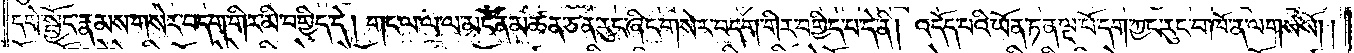དགེ་སྦྱོང་རྣམས་གསེར་བདག་གིར་མི་བགྱིད་དེ། གང་ལ་ལ་ལ་མངོན་མཚན་ཅན་རུང་ཞིང་གསེར་བདག་གིར་བགྱིད་པ་དེ་ནི། འདོད་པའི་ཡོན་ཏན་ལྔ་པོ་དག་ཀྱང་རུང་བ་ཁོ་ན་ལགས་སོ། །
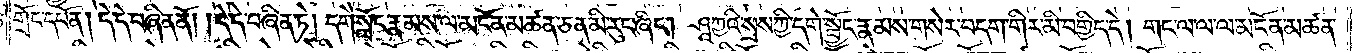གྲོང་དཔོན། དེ་དེ་བཞིན་ནོ། །དེ་དེ་བཞིན་ཏེ། དགེ་སློང་རྣམས་ལ་མངོན་མཚན་ཅན་མི་རུང་ཞིང༌། ཤཱཀྱའི་སྲས་ཀྱི་དགེ་སྦྱོང་རྣམས་གསེར་བདག་གིར་མི་བགྱིད་དེ། གང་ལ་ལ་ལ་མངོན་མཚན་
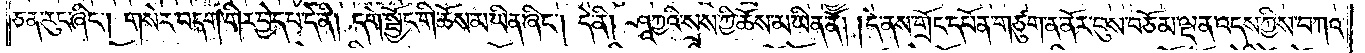ཅན་རུང་ཞིང༌། གསེར་བདག་གིར་བྱེད་པ་དེ་ནི། དགེ་སྦྱོང་གི་ཆོས་མ་ཡིན་ཞིང༌། དེ་ནི། ཤཱཀྱའི་སྲས་ཀྱི་ཆོས་མ་ཡིན་ནོ། །དེ་ནས་གྲོང་དཔོན་གཙུག་ན་ནོར་བུས་བཅོམ་ལྡན་འདས་ཀྱིས་བཀའ་
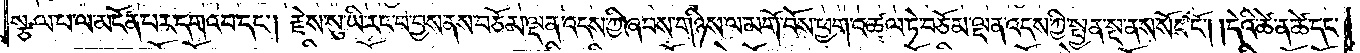སྩལ་པ་ལ་མངོན་པར་དགའ་བ་དང༌། རྗེས་སུ་ཡི་རང་བ་བྱས་ནས་བཅོམ་ལྡན་འདས་ཀྱི་ཞབས་གཉིས་ལ་མགོ་བོས་ཕྱག་འཚལ་ཏེ་བཅོམ་ལྡན་འདས་ཀྱི་སྤྱན་སྔ་ནས་སོང་ངོ༌། །དེའི་ཚེ་ན་ཚེ་དང་
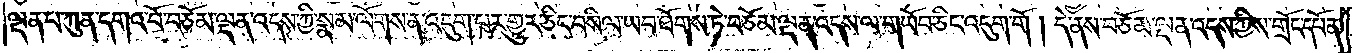ལྡན་པ་ཀུན་དགའ་བོ་བཅོམ་ལྡན་འདས་ཀྱི་སྣམ་ལོགས་ན་འདུག་པར་གྱུར་ཅིང་བསིལ་ཡབ་ཐོགས་ཏེ་བཅོམ་ལྡན་འདས་ལ་གཡོབ་ཅིང་འདུག་གོ། དེ་ནས་བཅོམ་ལྡན་འདས་ཀྱིས་གྲོང་དཔོན་
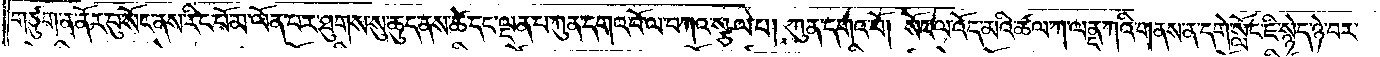གཙུག་ན་ནོར་བུ་སོང་ནས་རིང་པོ་མ་ལོན་པར་ཐུགས་སུ་ཆུད་ནས་ཚེ་དང་ལྡན་པ་ཀུན་དགའ་བོ་ལ་བཀའ་སྩལ་པ། ཀུན་དགའ་བོ། སོང་ལ་འོད་མའི་ཚལ་ཀ་ལནྡ་ཀའི་གནས་ན་དགེ་སློང་ཇི་སྙེད་ཉེ་བར་
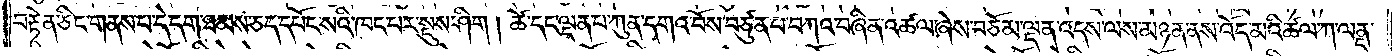བརྟེན་ཅིང་གནས་པ་དེ་དག་ཐམས་ཅད་དཔོང་སའི་ཁང་པར་སྡུས་ཤིག། ཚེ་དང་ལྡན་པ་ཀུན་དགའ་བོས་བཙུན་པ་བཀའ་བཞིན་འཚལ་ཞེས་བཅོམ་ལྡན་འདས་ལས་མཉན་ནས་འོད་མའི་ཚལ་ཀ་ལནྡ་
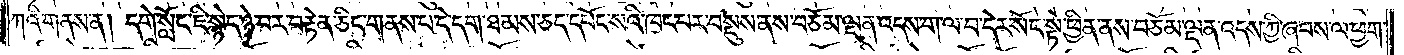ཀའི་གནས་ན། དགེ་སློང་ཇི་སྙེད་ཉེ་བར་བརྟེན་ཅིང་གནས་པ་དེ་དག་ཐམས་ཅད་དཔོང་སའི་ཁང་པར་བསྡུས་ནས་བཅོམ་ལྡན་འདས་ག་ལ་བ་དེར་སོང་སྟེ་ཕྱིན་ནས་བཅོམ་ལྡན་འདས་ཀྱི་ཞབས་ལ་ཕྱག་
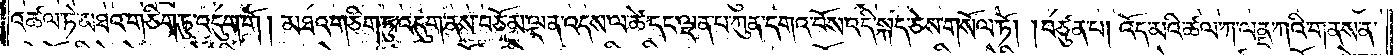འཚལ་ཏེ་མཐའ་གཅིག་ཏུ་འདུག་གོ། མཐའ་གཅིག་ཏུ་འདུག་ནས་བཅོམ་ལྡན་འདས་ལ་ཚེ་དང་ལྡན་པ་ཀུན་དགའ་བོས་འདི་སྐད་ཅེས་གསོལ་ཏོ། །བཙུན་པ། འོད་མའི་ཚལ་ཀ་ལནྡ་ཀའི་གནས་ན་
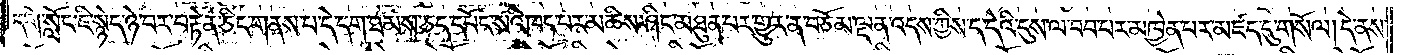དགེ་སློང་ཇི་སྙེད་ཉེ་བར་བརྟེན་ཅིང་གནས་པ་དེ་དག་ཐམས་ཅད་དཔོང་སའི་ཁང་པར་མཆིས་ཤིང་མཐུན་པར་གྱུར་ན་བཅོམ་ལྡན་འདས་ཀྱིས་ད་དེའི་དུས་ལ་བབ་པར་མཁྱེན་པར་མཛད་དུ་གསོལ། དེ་ནས་
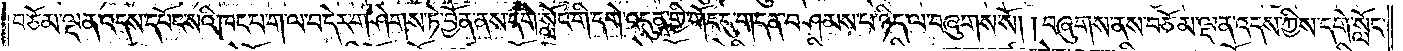བཅོམ་ལྡན་འདས་དཔོང་སའི་ཁང་པ་ག་ལ་བ་དེར་གཤེགས་ཏེ་བྱོན་ནས་དགེ་སློང་གི་དགེ་འདུན་གྱི་གོང་དུ་གདན་བཤམས་པ་ཉིད་ལ་བཞུགས་སོ། །བཞུགས་ནས་བཅོམ་ལྡན་འདས་ཀྱིས་དགེ་སློང་
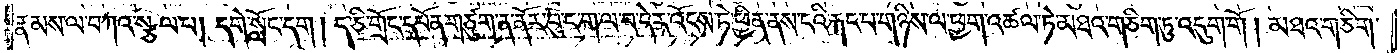རྣམས་ལ་བཀའ་སྩལ་པ། དགེ་སློང་དག། ད་ཅི་གྲོང་དཔོན་གཙུག་ན་ནོར་བུ་ང་ག་ལ་བ་དེར་འོངས་ཏེ་ཕྱིན་ནས་ངའི་རྐང་པ་གཉིས་ལ་ཕྱག་འཚལ་ཏེ་མཐའ་གཅིག་ཏུ་འདུག་གོ། མཐའ་གཅིག་
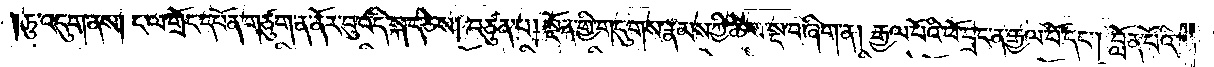ཏུ་འདུག་ནས། ང་ལ་གྲོང་དཔོན་གཙུག་ན་ནོར་བུ་འདི་སྐད་ཅེས། བཙུན་པ། སྔོན་གྱི་གདུགས་རྣམས་ཀྱི་ཆེས་སྔ་བ་ཞིག་ན། རྒྱལ་པོའི་ཕོ་བྲང་ན་རྒྱལ་པོ་དང༌། བློན་པོའི་
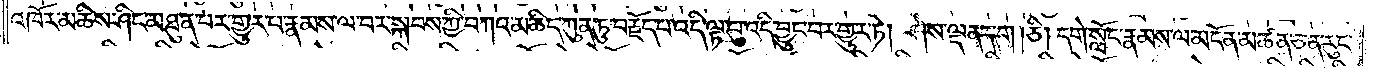འཁོར་མཆིས་ཤིང་མཐུན་པར་གྱུར་པ་རྣམས་ལ་བར་སྐབས་ཀྱི་བཀའ་མཆིད་ཀུན་ཏུ་བརྗོད་པ་འདི་ལྟ་བུ་འདི་བྱུང་བར་གྱུར་ཏེ། ཤེས་ལྡན་དག། ཅི། དགེ་སློང་རྣམས་ལ་མངོན་མཚན་ཅན་རུང་
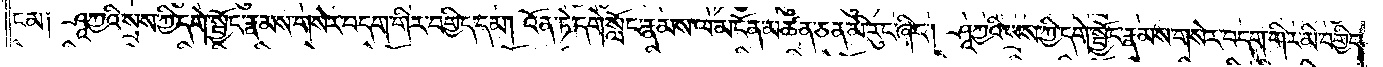ངམ༑ ཤཱཀྱའི་སྲས་ཀྱི་དགེ་སྦྱོང་རྣམས་གསེར་བདག་གིར་བགྱིད་དམ། འོན་ཏེ་དགེ་སློང་རྣམས་ལ་མངོན་མཚན་ཅན་མི་རུང་ཞིང༌། ཤཱཀྱའི་སྲས་ཀྱི་དགེ་སྦྱོང་རྣམས་གསེར་བདག་གིར་མི་བགྱིད་
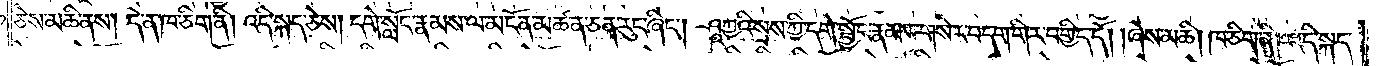ཅེས་མཆི་ནས། དེ་ན་ཁ་ཅིག་ནི། འདི་སྐད་ཅེས། དགེ་སློང་རྣམས་ལ་མངོན་མཚན་ཅན་རུང་ཞིང༌། ཤཱཀྱའི་སྲས་ཀྱི་དགེ་སྦྱོང་རྣམས་གསེར་བདག་གིར་བགྱིད་དོ། །ཞེས་མཆི། ཁ་ཅིག་ནི། འདི་སྐད་
